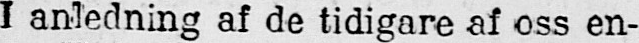I anledning af de tidigare af oss en-
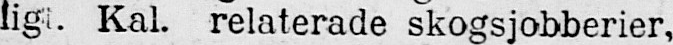ligi. Kal. relaterade skogsjobberier,
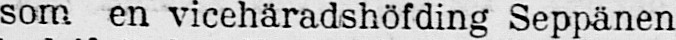som en vicehäradshöfding Seppänen
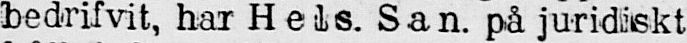bedrifvit, har Hels. San. på juridiskt
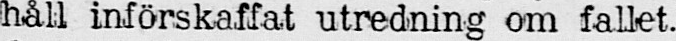håll införskaffat utredning om fallet.
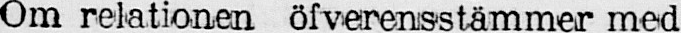Om relationen öfverensstämmer med
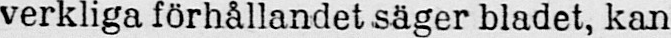verkliga förhållandet säger bladet, kan
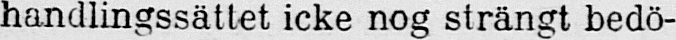handlingssättet icke nog strängt bedö-
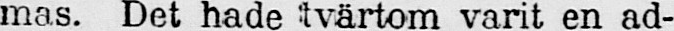mas. Det hade tvärtom varit en ad-
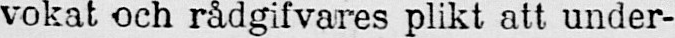vokat och rådgifvares plikt att under-
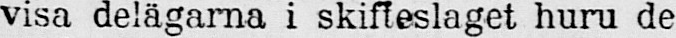visa delägarna i skifteslaget huru de
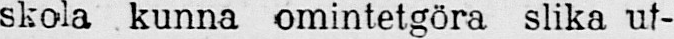skola kunna omintetgöra slika ut-
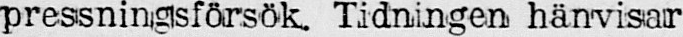pressningsförsök. Tidningen hänvisar
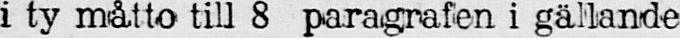i ty måtto till 8 paragrafen i gällande
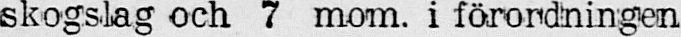skogslag och 7 mom. i förordningen
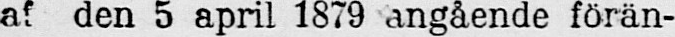af den 5 april 1879 angående förän-
